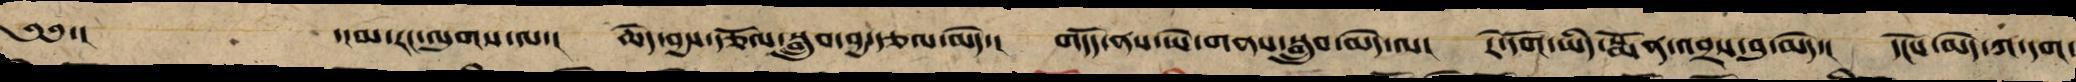༄༅་།   ་།མ་རང་ལུགས་ལ་། ཆེད་བྱས་རྩོལ་བསྒྲུབ་བྱ་རྩལ་མེད་། གདོད་ནས་ཡེ་གནས་སྒྲུབ་མེད་ལ་། རེ་དོག་ཡིད་སྨོན་འབྲས་བུ་མེད་། དངོས་མེད་ཀ་དག་
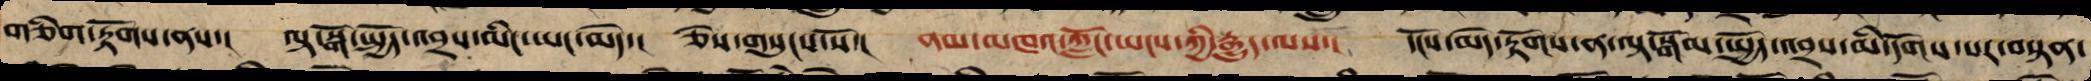གཅིག་རྟོགས་ནས་། ལྟ་སྒོམ་སྤྱོད་འབྲས་མིང་ཡང་མེད་། ཅེས་གསུངས་སོ་། ནམ་མཁའ་ཀློང་ཡངས་ཀྱི་རྒྱུད་ལས་། དངོས་མེད་རྟོགས་ན་ལྟ་སྒོམ་སྤྱོད་འབྲས་མི་དགོས་པར་བསྟན་
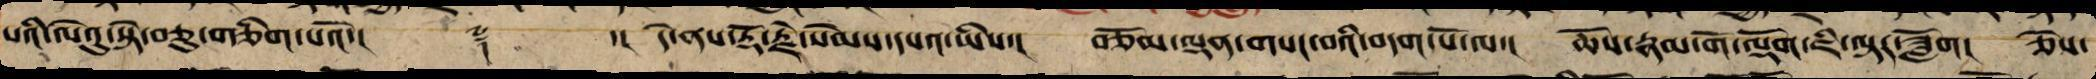པའི་ལེའུ་སྟེ་བཅུ་གཅིག་པའོ་།། ༈ ་།། དེ་ནས་རྡོ་རྗེ་སེམས་དཔའ་ཡིས་། བཅོམ་ལྡན་གསང་བའི་བདག་པོ་ལ་། ཆོས་རྣམ་གོ་ལྡོག་ཇི་ལྟར་ཟློག། ཅེས་
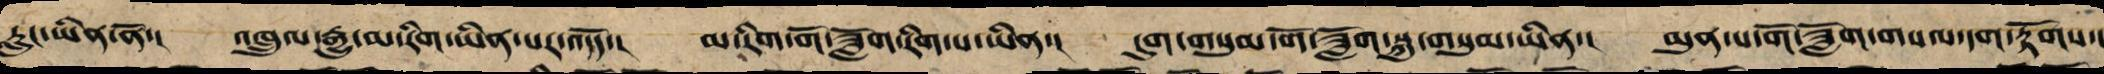རླུང་ཡིན་ནོ་། འཁྲུལ་རྒྱུ་མ་རིག་ཡིན་པར་འདོད་། མ་རིག་གོ་ཟློག་རིག་པ་ཡིན་། དུག་གསུམ་གོ་ཟྫོག་སྐུ་གསུམ་ཡིན་། མུན་པ་གོ་ཟློག་གསལ་དག་རྟོགས་།
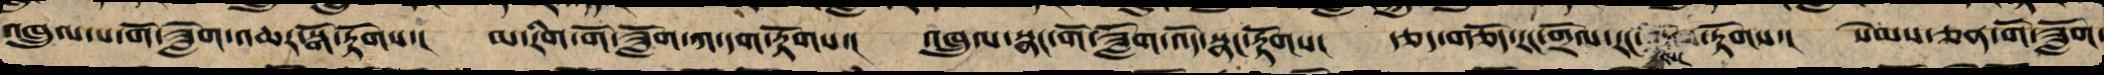འཁྲུལ་པ་གོ་ཟློག་འཆར་སྒོ་རྟོགས་། མ་རིག་གོ་ཟློག་ཀ་དག་རྟོགས་། འཁྲུལ་སྣང་གོ་ལྡོག་འོད་སྣང་རྟོགས། རྩད་གཅོད་རང་གྲོལ་རང་སངས་རྟོགས་། སེམས་ཅན་གོ་ཟློག་
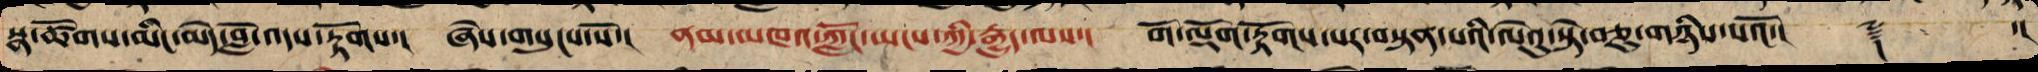སྣ་ཚོགས་མིང་མེད་བློ་འདས་རྟོགས་། ཞེས་གསུངས་སོ་། ནམ་མཁའ་ཀློང་ཡངས་ཀྱི་རྒྱུད་ལས་། གོ་ལྡོག་རྟོགས་པར་བསྟན་པའི་ལེའུ་སྟེ་བཅུ་གསུམ་པའོ་།། ༈ ་།།
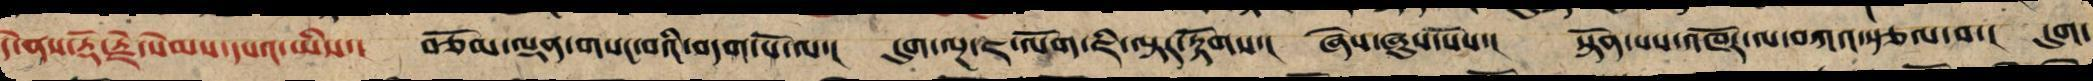དེ་ནས་རྡོ་རྗེ་སེམས་དཔའ་ཡིས་། བཅོམ་ལྡན་གསང་བའི་བདག་པོ་ལ་། དུག་ལྔ་ཇ་ལོག་ཇི་ལྟར་འགྱུར་། ཞེས་ཞུས་པས་། སྟོན་པས་འཁོར་ལ་བཀའ་སྩལ་པ་། དུག་
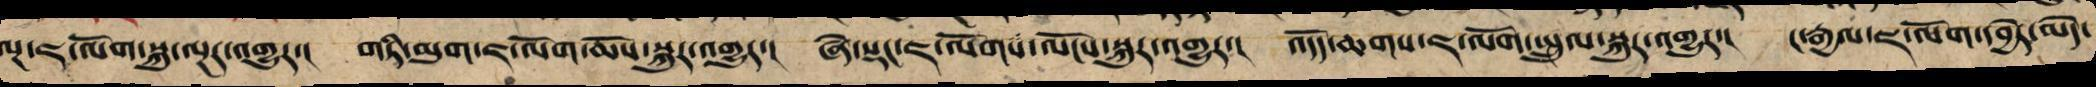ལྔ་ཇ་ལོག་སྐུ་ལྔར་འགྱུར་། གཏི་མུག་ཇ་ལོག་ཆོས་སྐུར་འགྱུར་། ཞེ་སྡང་ཇ་ལོགས་ལོངས་སྐུར་འགྱུར་། འདོད་ཆགས་ཇ་ལོག་སྤྲུལ་སྐུར་འགྱུར་། ང་རྒྱལ་ཇ་ལོག་དབྱེར་མེད་
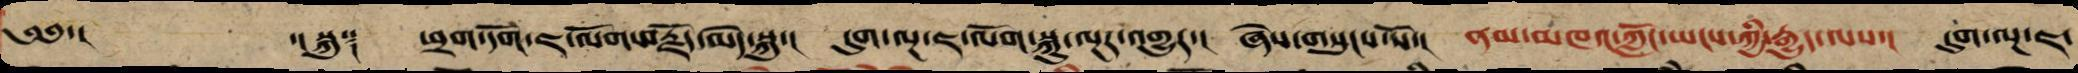༄༅་།  ་།སྐུ༑ ཕྲག་དོག་ཇ་ལོག་བརྗོད་མེད་སྐུ་། དུག་ལྔ་ཇ་ལོག་སྐུ་ལྔར་འགྱུར་། ཞེས་གསུངས་སོ་། ནམ་མཁའ་ཀློང་ཡངས་ཀྱི་རྒྱུད་ལས་། དུག་ལྔ་ཇ་
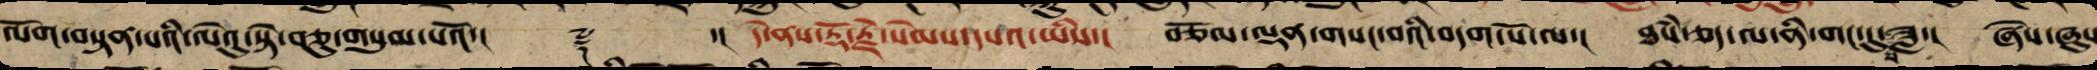ལོག་བསྟན་པའི་ལེའུ་སྟེ་བཅུ་གསུམ་པའོ་།། ༈ ་།། དེ་ནས་རྡོ་རྗེ་སེམས་དཔའ་ཡིས་། བཅོམ་ལྡན་གསང་བའི་བདག་པོ་ལ་། ཐཾས་ཅད་ལ་ནི་གང་དུ་བཟླ་། ཞེས་ཞུས
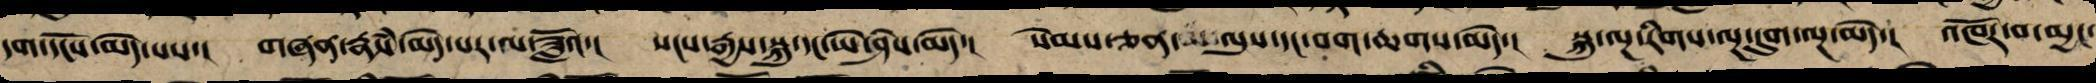དག་དངོས་མེད་པས་། གཞན་རྣཾས་མེད་པར་ལ་ཟླའོ་། སངས་རྒྱས་སྐུ་དང་ཡེ་ཤེས་མེད་། སེམས་ཅན་ལུས་དང་བག་ཆགས་མེད་། སྐུ་ལྔ་རིགས་ལྔ་དུག་ལྔ་མེད་། འཁོར་བ་མྱང་
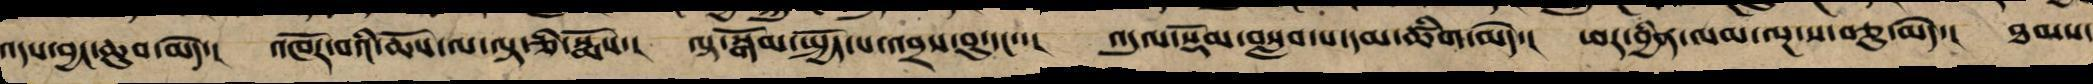འདས་བྱང་ཆུབ་མེད་། འཁོར་བའི་ཆོས་ལ་ལྟ་ཅི་སྨོས་། ལྟ་སྒོམ་སྤྱོད་པ་འབྲས་བུ་དང་་། འདུལ་སྡོམ་བསླབ་པ་དམ་ཚིག་མེད་། ཕར་ཕྱིན་ལམ་ལྔ་ས་བཅུ་མེད་། ཐམས་
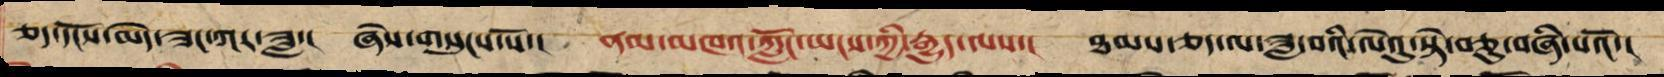ཅད་དངོས་མེད་ཟང་ཀར་ཟླ་། ཞེས་གསུངས་སོ་། ནམ་མཁའ་ཀློང་ཡངས་ཀྱི་རྒྱུད་ལས་། ཐམས་ཅད་ལ་ཟླ་བའི་ལེའུ་སྟེ་བཅུ་བཞི་པའོ་།།
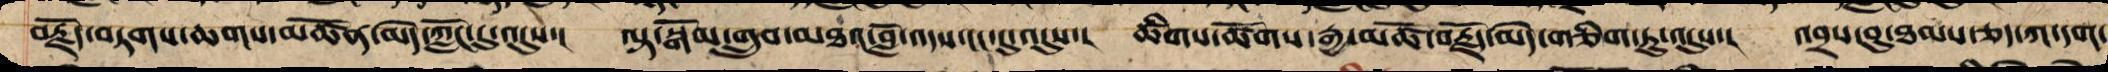བརྗོད་བཏགས་ཆགས་མཚོན་མེད་ཀློང་དུ་འདུས་། ལྟ་སྒོམ་གྲུབ་མཐའ་བློ་འདས་ངང་དུ་འདུས་། ཚིགས་ཚོགས་རྒྱ་མཚོ་བརྗོད་མེད་གཅིག་ཏུ་འདུས་། འབྲས་བུ་ཐམས་ཅད་ཀ་དག་
